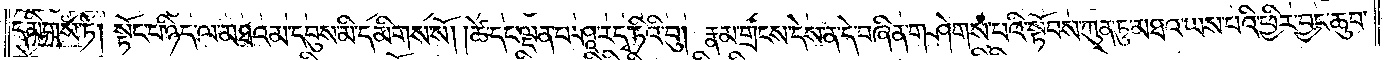དམིགས་ཏེ། སྟོང་པ་ཉིད་ལ་མཐའམ་དབུས་མི་དམིགས་སོ། །ཚེ་དང་ལྡན་པ་ཤཱ་ར་དྭ་ཏིའི་བུ། རྣམ་གྲངས་དེས་ན་དེ་བཞིན་གཤེགས་པའི་སྟོབས་ཀུན་ཏུ་མཐའ་ཡས་པའི་ཕྱིར་བྱང་ཆུབ་
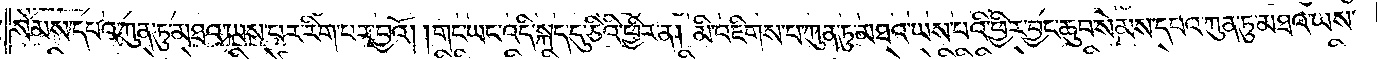སེམས་དཔའ་ཀུན་ཏུ་མཐའ་ཡས་པར་རིག་པར་བྱའོ། །གང་ཡང་འདི་སྐད་དུ་ཅིའི་ཕྱིར་ན། མི་འཇིགས་པ་ཀུན་ཏུ་མཐའ་ཡས་པའི་ཕྱིར་བྱང་ཆུབ་སེམས་དཔའ་ཀུན་ཏུ་མཐའ་ཡས་
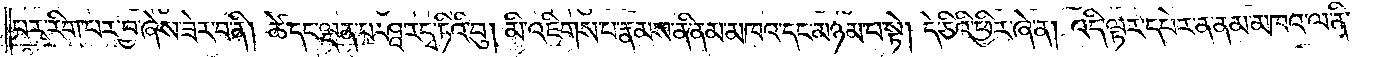པར་རིག་པར་བྱ་ཞེས་ཟེར་བ་ནི། ཚེ་དང་ལྡན་པ་ཤཱ་ར་དྭ་ཏིའི་བུ། མི་འཇིགས་པ་རྣམས་ནི་ནམ་མཁའ་དང་མཉམ་པ་སྟེ། དེ་ཅིའི་ཕྱིར་ཞེ་ན། འདི་ལྟར་དཔེར་ན་ནམ་མཁའ་ལ་ནི་
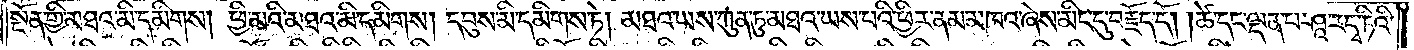སྔོན་གྱི་མཐའ་མི་དམིགས། ཕྱི་མའི་མཐའ་མི་དམིགས། དབུས་མི་དམིགས་ཏེ། མཐའ་ཡས་ཀུན་ཏུ་མཐའ་ཡས་པའི་ཕྱིར་ནམ་མཁའ་ཞེས་མིང་དུ་བརྗོད་དོ། །ཚེ་དང་ལྡན་པ་ཤཱ་ར་དྭ་ཏིའི་
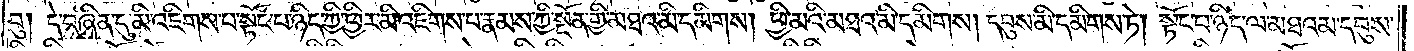བུ། དེ་བཞིན་དུ་མི་འཇིགས་པ་སྟོང་པ་ཉིད་ཀྱི་ཕྱིར་མི་འཇིགས་པ་རྣམས་ཀྱི་སྔོན་གྱི་མཐའ་མི་དམིགས། ཕྱི་མའི་མཐའ་མི་དམིགས། དབུས་མི་དམིགས་ཏེ། སྟོང་པ་ཉིད་ལ་མཐའམ་དབུས་
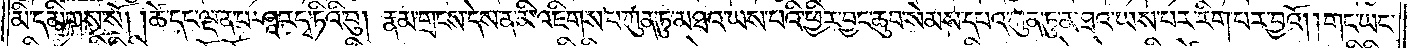མི་དམིགས་སོ། །ཚེ་དང་ལྡན་པ་ཤཱ་ར་དྭ་ཏིའི་བུ། རྣམ་གྲངས་དེས་ན་མི་འཇིགས་པ་ཀུན་ཏུ་མཐའ་ཡས་པའི་ཕྱིར་བྱང་ཆུབ་སེམས་དཔའ་ཀུན་ཏུ་མཐའ་ཡས་པར་རིག་པར་བྱའོ། །གང་ཡང་
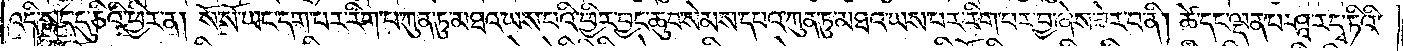འདི་སྐད་དུ་ཅིའི་ཕྱིར་ན། སོ་སོ་ཡང་དག་པར་རིག་པ་ཀུན་ཏུ་མཐའ་ཡས་པའི་ཕྱིར་བྱང་ཆུབ་སེམས་དཔའ་ཀུན་ཏུ་མཐའ་ཡས་པར་རིག་པར་བྱ་ཞེས་ཟེར་བ་ནི། ཚེ་དང་ལྡན་པ་ཤཱ་ར་དྭ་ཏིའི་
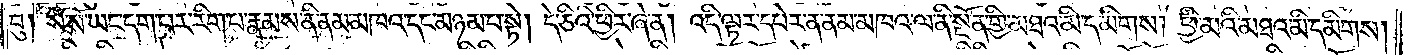བུ། སོ་སོ་ཡང་དག་པར་རིག་པ་རྣམས་ནི་ནམ་མཁའ་དང་མཉམ་པ་སྟེ། དེ་ཅིའི་ཕྱིར་ཞེ་ན། འདི་ལྟར་དཔེར་ན་ནམ་མཁའ་ལ་ནི་སྔོན་གྱི་མཐའ་མི་དམིགས། ཕྱི་མའི་མཐའ་མི་དམིགས།
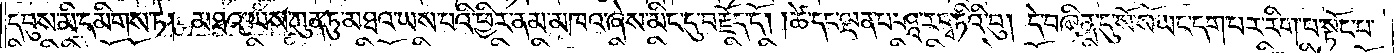དབུས་མི་དམིགས་ཏེ། མཐའ་ཡས་ཀུན་ཏུ་མཐའ་ཡས་པའི་ཕྱིར་ནམ་མཁའ་ཞེས་མིང་དུ་བརྗོད་དོ། །ཚེ་དང་ལྡན་པ་ཤཱ་ར་དྭ་ཏིའི་བུ། དེ་བཞིན་དུ་སོ་སོ་ཡང་དག་པར་རིག་པ་སྟོང་པ་
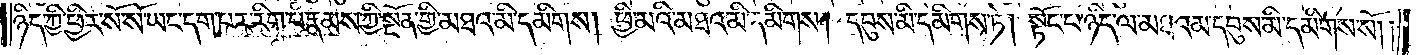ཉིད་ཀྱི་ཕྱིར་སོ་སོ་ཡང་དག་པར་རིག་པ་རྣམས་ཀྱི་སྔོན་གྱི་མཐའ་མི་དམིགས། ཕྱི་མའི་མཐའ་མི་དམིགས། དབུས་མི་དམིགས་ཏེ། སྟོང་པ་ཉིད་ལ་མཐའམ་དབུས་མི་དམིགས་སོ།
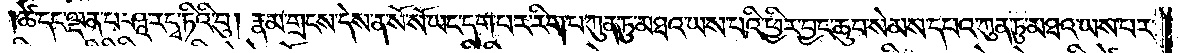ཚེ་དང་ལྡན་པ་ཤཱ་ར་དྭ་ཏིའི་བུ། རྣམ་གྲངས་དེས་ན་སོ་སོ་ཡང་དག་པར་རིག་པ་ཀུན་ཏུ་མཐའ་ཡས་པའི་ཕྱིར་བྱང་ཆུབ་སེམས་དཔའ་ཀུན་ཏུ་མཐའ་ཡས་པར་
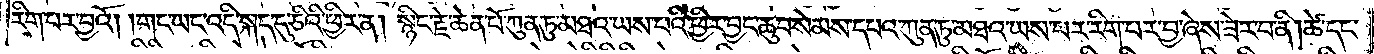རིག་པར་བྱའོ། །གང་ཡང་འདི་སྐད་དུ་ཅིའི་ཕྱིར་ན། སྙིང་རྗེ་ཆེན་པོ་ཀུན་ཏུ་མཐའ་ཡས་པའི་ཕྱིར་བྱང་ཆུབ་སེམས་དཔའ་ཀུན་ཏུ་མཐའ་ཡས་པར་རིག་པར་བྱ་ཞེས་ཟེར་བ་ནི། ཚེ་དང་
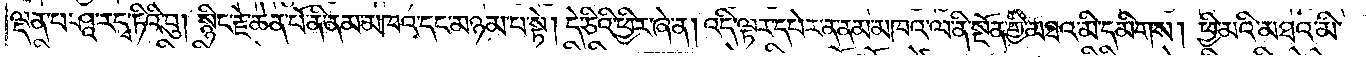ལྡན་པ་ཤཱ་ར་དྭ་ཏིའི་བུ། སྙིང་རྗེ་ཆེན་པོ་ནི་ནམ་མཁའ་དང་མཉམ་པ་སྟེ། དེ་ཅིའི་ཕྱིར་ཞེ་ན། འདི་ལྟར་དཔེར་ན་ནམ་མཁའ་ལ་ནི་སྔོན་གྱི་མཐའ་མི་དམིགས། ཕྱི་མའི་མཐའ་མི་
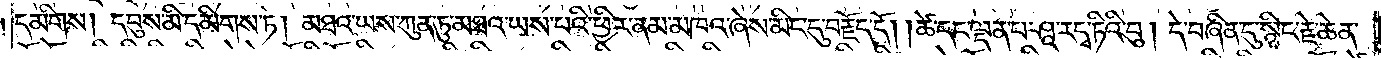དམིགས། དབུས་མི་དམིགས་ཏེ། མཐའ་ཡས་ཀུན་ཏུ་མཐའ་ཡས་པའི་ཕྱིར་ནམ་མཁའ་ཞེས་མིང་དུ་བརྗོད་དོ། །ཚེ་དང་ལྡན་པ་ཤཱ་ར་དྭ་ཏིའི་བུ། དེ་བཞིན་དུ་སྙིང་རྗེ་ཆེན་
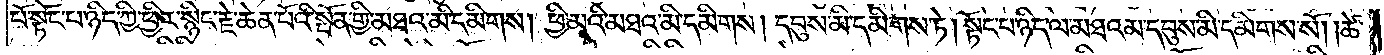པོ་སྟོང་པ་ཉིད་ཀྱི་ཕྱིར་སྙིང་རྗེ་ཆེན་པོའི་སྔོན་གྱི་མཐའ་མི་དམིགས། ཕྱི་མའི་མཐའ་མི་དམིགས། དབུས་མི་དམིགས་ཏེ། སྟོང་པ་ཉིད་ལ་མཐའམ་དབུས་མི་དམིགས་སོ། །ཚེ་
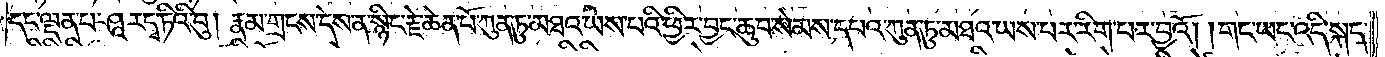དང་ལྡན་པ་ཤཱ་ར་དྭ་ཏིའི་བུ། རྣམ་གྲངས་དེས་ན་སྙིང་རྗེ་ཆེན་པོ་ཀུན་ཏུ་མཐའ་ཡས་པའི་ཕྱིར་བྱང་ཆུབ་སེམས་དཔའ་ཀུན་ཏུ་མཐའ་ཡས་པར་རིག་པར་བྱའོ། །གང་ཡང་འདི་སྐད་
